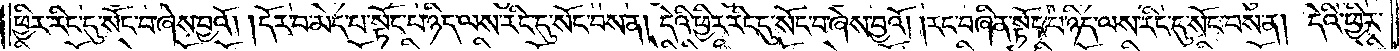ཕྱིར་རིང་དུ་སོང་བ་ཞེས་བྱའོ། །དོར་བ་མེད་པ་སྟོང་པ་ཉིད་ལས་རིང་དུ་སོང་བས་ན། དེའི་ཕྱིར་རིང་དུ་སོང་བ་ཞེས་བྱའོ། །རང་བཞིན་སྟོང་པ་ཉིད་ལས་རིང་དུ་སོང་བས་ན། དེའི་ཕྱིར་
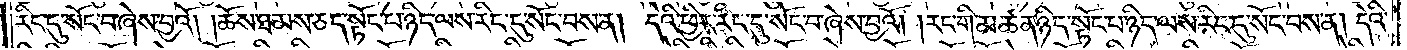རིང་དུ་སོང་བ་ཞེས་བྱའོ། །ཆོས་ཐམས་ཅད་སྟོང་པ་ཉིད་ལས་རིང་དུ་སོང་བས་ན། དེའི་ཕྱིར་རིང་དུ་སོང་བ་ཞེས་བྱའོ། །རང་གི་མཚན་ཉིད་སྟོང་པ་ཉིད་ལས་རིང་དུ་སོང་བས་ན། དེའི་
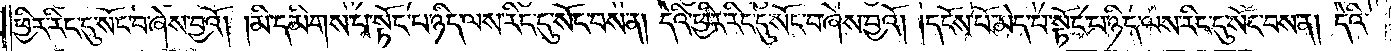ཕྱིར་རིང་དུ་སོང་བ་ཞེས་བྱའོ། །མི་དམིགས་པ་སྟོང་པ་ཉིད་ལས་རིང་དུ་སོང་བས་ན། དེའི་ཕྱིར་རིང་དུ་སོང་བ་ཞེས་བྱའོ། ། དངོས་པོ་མེད་པ་སྟོང་པ་ཉིད་ལས་རིང་དུ་སོང་བས་ན། དེའི་
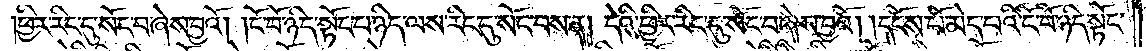ཕྱིར་རིང་དུ་སོང་བ་ཞེས་བྱའོ། །ངོ་བོ་ཉིད་སྟོང་པ་ཉིད་ལས་རིང་དུ་སོང་བས་ན། དེའི་ཕྱིར་རིང་དུ་སོང་བ་ཞེས་བྱའོ། །དངོས་པོ་མེད་པའི་ངོ་བོ་ཉིད་སྟོང་
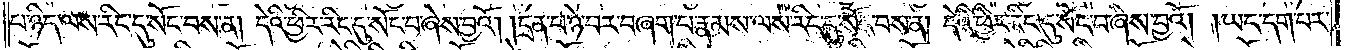པ་ཉིད་ལས་རིང་དུ་སོང་བས་ན། དེའི་ཕྱིར་རིང་དུ་སོང་བ་ཞེས་བྱའོ། །དྲན་པ་ཉེ་བར་བཞག་པ་རྣམས་ལས་རིང་དུ་སོང་བས་ན། དེའི་ཕྱིར་རིང་དུ་སོང་བ་ཞེས་བྱའོ། །ཡང་དག་པར་
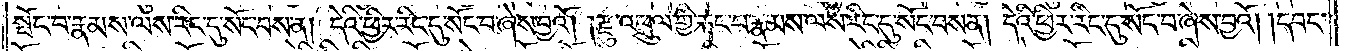སྤོང་བ་རྣམས་ལས་རིང་དུ་སོང་བས་ན། དེའི་ཕྱིར་རིང་དུ་སོང་བ་ཞེས་བྱའོ། །རྫུ་འཕྲུལ་གྱི་རྐང་པ་རྣམས་ལས་རིང་དུ་སོང་བས་ན། དེའི་ཕྱིར་རིང་དུ་སོང་བ་ཞེས་བྱའོ། །དབང་
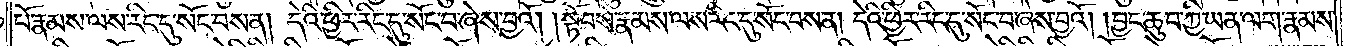པོ་རྣམས་ལས་རིང་དུ་སོང་བས་ན། དེའི་ཕྱིར་རིང་དུ་སོང་བ་ཞེས་བྱའོ། །སྟོབས་རྣམས་ལས་རིང་དུ་སོང་བས་ན། དེའི་ཕྱིར་རིང་དུ་སོང་བ་ཞེས་བྱའོ། །བྱང་ཆུབ་ཀྱི་ཡན་ལག་རྣམས་
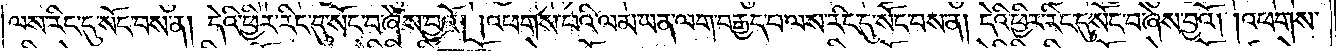ལས་རིང་དུ་སོང་བས་ན། དེའི་ཕྱིར་རིང་དུ་སོང་བ་ཞེས་བྱའོ། ། འཕགས་པའི་ལམ་ཡན་ལག་བརྒྱད་པ་ལས་རིང་དུ་སོང་བས་ན། དེའི་ཕྱིར་རིང་དུ་སོང་བ་ཞེས་བྱའོ། །འཕགས་
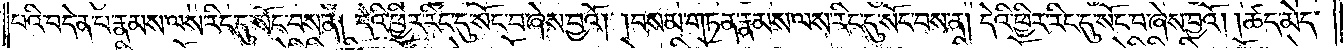པའི་བདེན་པ་རྣམས་ལས་རིང་དུ་སོང་བས་ན། དེའི་ཕྱིར་རིང་དུ་སོང་བ་ཞེས་བྱའོ། བསམ་གཏན་རྣམས་ལས་རིང་དུ་སོང་བས་ན། དེའི་ཕྱིར་རིང་དུ་སོང་བ་ཞེས་བྱའོ། །ཚད་མེད་
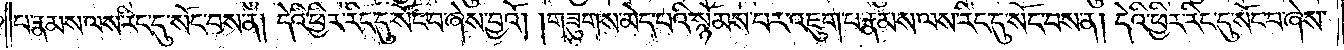པ་རྣམས་ལས་རིང་དུ་སོང་བས་ན། དེའི་ཕྱིར་རིང་དུ་སོང་བ་ཞེས་བྱའོ། །གཟུགས་མེད་པའི་སྙོམས་པར་འཇུག་པ་རྣམས་ལས་རིང་དུ་སོང་བས་ན། དེའི་ཕྱིར་རིང་དུ་སོང་བ་ཞེས་
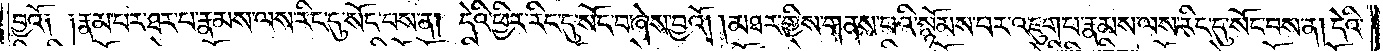བྱའོ༑ ༑རྣམ་པར་ཐར་པ་རྣམས་ལས་རིང་དུ་སོང་བས་ན། དེའི་ཕྱིར་རིང་དུ་སོང་བ་ཞེས་བྱའོ། །མཐར་གྱིས་གནས་པའི་སྙོམས་པར་འཇུག་པ་རྣམས་ལས་རིང་དུ་སོང་བས་ན། དེའི་
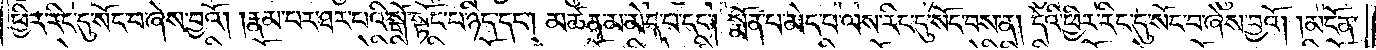ཕྱིར་རིང་དུ་སོང་བ་ཞེས་བྱའོ། །རྣམ་པར་ཐར་པའི་སྒོ་སྟོང་པ་ཉིད་དང༌། མཚན་མ་མེད་པ་དང༌། སྨོན་པ་མེད་པ་ལས་རིང་དུ་སོང་བས་ན། དེའི་ཕྱིར་རིང་དུ་སོང་བ་ཞེས་བྱའོ། །མངོན་
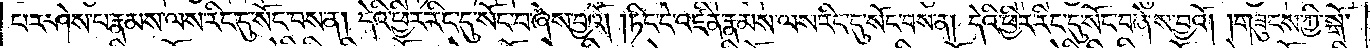པར་ཤེས་པ་རྣམས་ལས་རིང་དུ་སོང་བས་ན། དེའི་ཕྱིར་རིང་དུ་སོང་བ་ཞེས་བྱའོ། །ཏིང་ངེ་འཛིན་རྣམས་ལས་རིང་དུ་སོང་བས་ན། དེའི་ཕྱིར་རིང་དུ་སོང་བ་ཞེས་བྱའོ། །གཟུངས་ཀྱི་སྒོ་
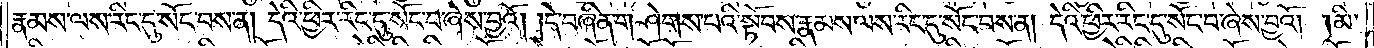རྣམས་ལས་རིང་དུ་སོང་བས་ན། དེའི་ཕྱིར་རིང་དུ་སོང་བ་ཞེས་བྱའོ། །དེ་བཞིན་གཤེགས་པའི་སྟོབས་རྣམས་ལས་རིང་དུ་སོང་བས་ན། དེའི་ཕྱིར་རིང་དུ་སོང་བ་ཞེས་བྱའོ། །མི་
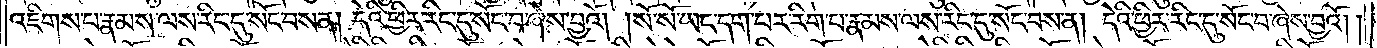འཇིགས་པ་རྣམས་ལས་རིང་དུ་སོང་བས་ན། དེའི་ཕྱིར་རིང་དུ་སོང་བ་ཞེས་བྱའོ། །སོ་སོ་ཡང་དག་པར་རིག་པ་རྣམས་ལས་རིང་དུ་སོང་བས་ན། དེའི་ཕྱིར་རིང་དུ་སོང་བ་ཞེས་བྱའོ། །
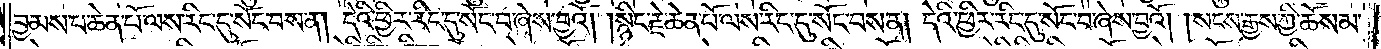བྱམས་པ་ཆེན་པོ་ལས་རིང་དུ་སོང་བས་ན། དེའི་ཕྱིར་རིང་དུ་སོང་བ་ཞེས་བྱའོ། །སྙིང་རྗེ་ཆེན་པོ་ལས་རིང་དུ་སོང་བས་ན། དེའི་ཕྱིར་རིང་དུ་སོང་བ་ཞེས་བྱའོ། །སངས་རྒྱས་ཀྱི་ཆོས་མ་
